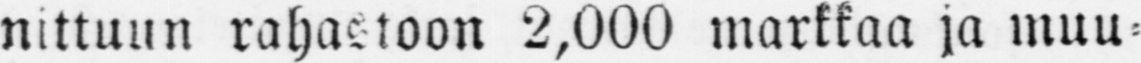nittuun rahastoon 2,000 markkaa ja muu-
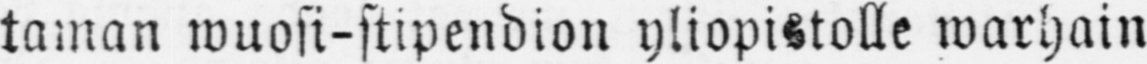taman wuosi-stipendion yliopistolle warhain
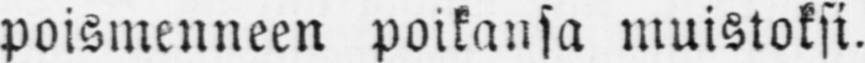poismenneen potkansa muistoksi.
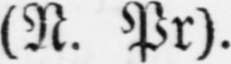(N. Pr).
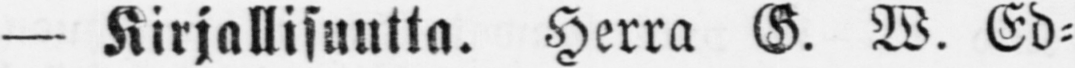— Kirjallisuutta. Herra G. W. Ed-
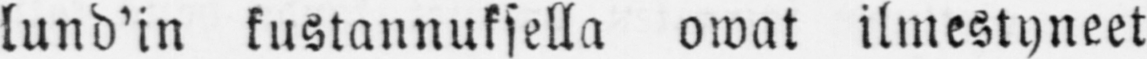lund'in kustannuksella owat ilmestyneet
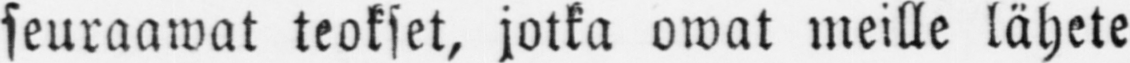seuraawat teokset, jotka owat meille lähete-
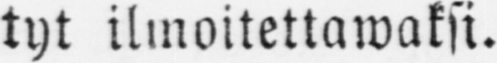tyt ilmoitettawaksi.
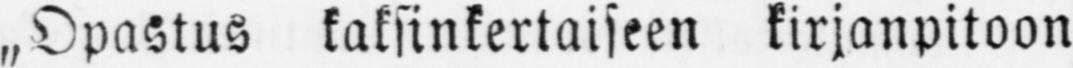„Opastus kaksinkertaiseen kirjanpitoon
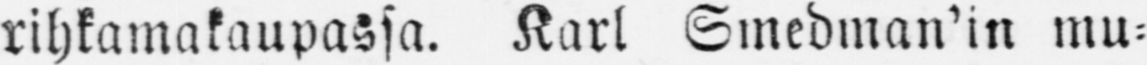rihkamakaupassa. Karl Smedman'in mu-
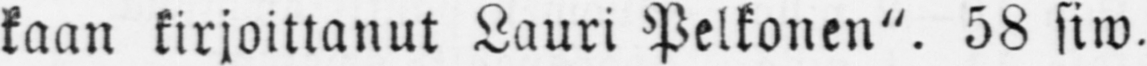kaan kirjoittanut Lauri Pelkonen". 58 siw.
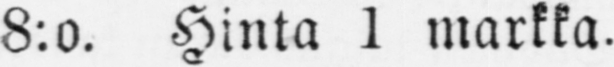8.o. Hinta 1 markka.
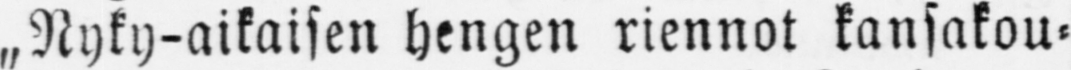„Nyky-aikaisen hengen riennot kansakou-
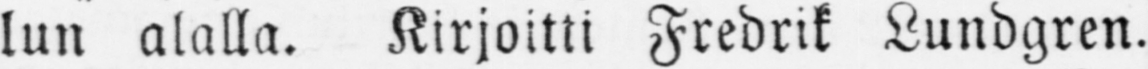lun alalla. Kirjoitti Fredrik Lundgren.
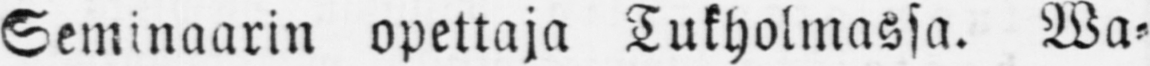Seminaarin opettaja Tukholmassa. Wa-
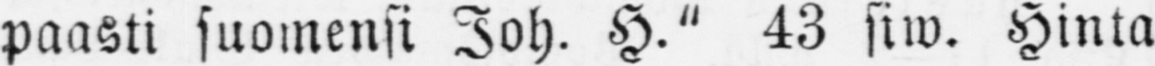paasti suomensi Joh. H." 43 siw. Hinta
